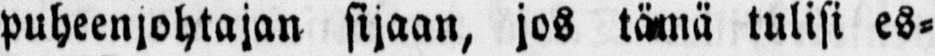puheenjohtajan sijaan, jos tämä tulisi es-
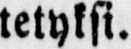tetyksi.
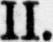II.
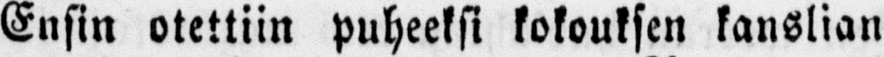Ensin otettiin puheeksi kokouksen kanslian
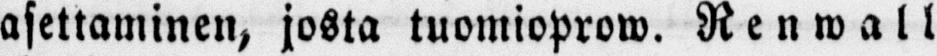asettaminen, josta tuomioprow. Renwall
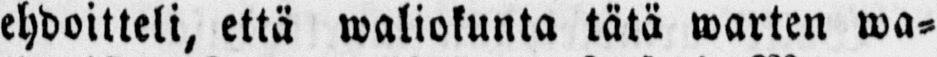ehdoitteli, että waliokunta tätä warten wa-
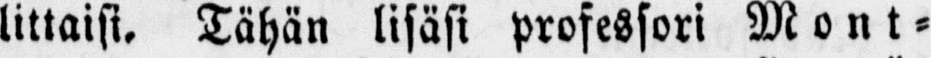littaisi. Tähän lisäsi professori Mont-
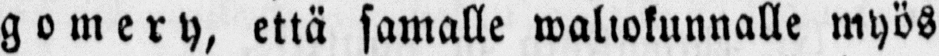gomery, että samalle waliokunnalle myös
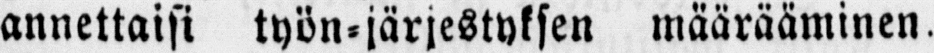annettaisi työn-järjestyksen määrääminen.
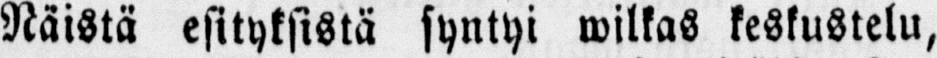Näistä esityksistä syntyi wilkas keskustelu,
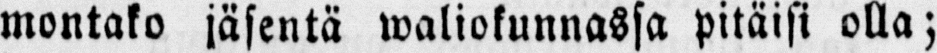montako jäsentä waliokunnassa pitäisi olla,
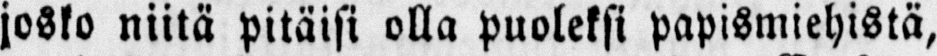josko niitä pitäisi olla puoleksi papismiehistä,
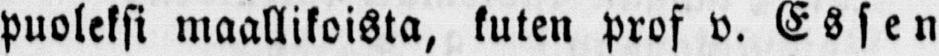puoleksi maallikoista, kuten prof v. Essen
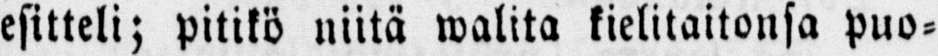esitteli; pitikö niitä walita kielitaitonsa puo-
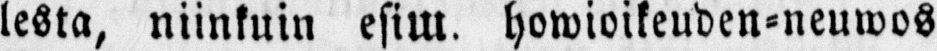lesta, niinkuin esim. howioikeuden-neuwos
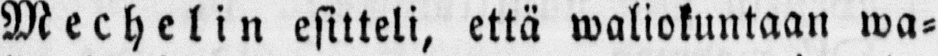Mechelin esitteli, että waliokuntaan wa-
